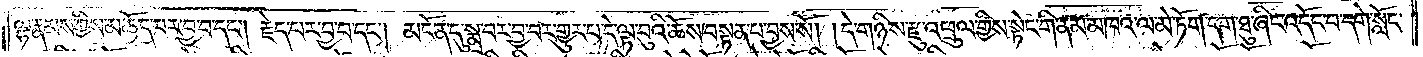ལྷ་རྣམས་ཀྱིས་མཆོད་པར་བྱ་བ་དང༌། རྗེད་པར་བྱ་བ་དང༌། མངོན་དུ་སྨྲ་བར་བྱ་བར་གྱུར་པ་དེ་ལྟ་བུའི་ཆོས་བསྟན་པ་བྱས་སོ། །དེ་གཉིས་རྫུ་འཕྲུལ་གྱིས་སྟེང་གི་ནམ་མཁའ་ལ་མེ་ཏོག་དག་ཐུ་ཞིང་འདོང་བ་དགེ་སློང་
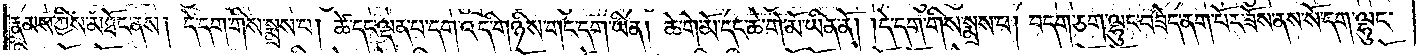རྣམས་ཀྱིས་མཐོང་ནས། དེ་དག་གིས་སྨྲས་པ། ཚེ་དང་ལྡན་པ་དག་འདི་གཉིས་གང་དག་ཡིན། ཆེ་གེ་མོ་དང་ཆེ་གེ་མོ་ཡིན་ནོ། །དེ་དག་གིས་སྨྲས་པ། བདག་ཅག་ལྷུང་བཟེད་ནག་པོར་ཟོས་ནས་སོ་དག་ལྷུང་
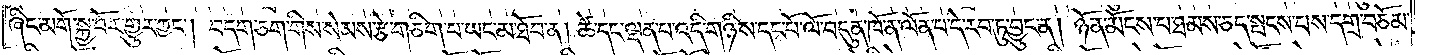ཞིང་མགོ་སྐྱ་བོར་གྱུར་ཀྱང༌། བདག་ཅག་གིས་སེམས་རྩེ་གཅིག་པ་ཡང་མ་ཐོབ་ན། ཚེ་དང་ལྡན་པ་འདི་གཉིས་དང་པོ་ལོ་བདུན་ཁོ་ན་ལོན་པ་དེ་རབ་ཏུ་བྱུང་ན། ཉོན་མོངས་པ་ཐམས་ཅད་སྤངས་པས་དགྲ་བཅོམ་
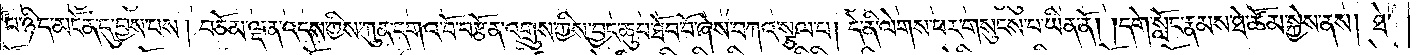པ་ཉིད་མངོན་དུ་བྱས་པས། བཅོམ་ལྡན་འདས་ཀྱིས་ཀུན་དགའ་བོ་བརྩོན་འགྲུས་ཀྱིས་བྱང་ཆུབ་ཐོབ་བོ་ཞེས་བཀའ་སྩལ་པ། དེ་ནི་ལེགས་པར་གསུངས་པ་ཡིན་ནོ། །དགེ་སློང་རྣམས་ཐེ་ཚོམ་སྐྱེས་ནས། ཐེ་
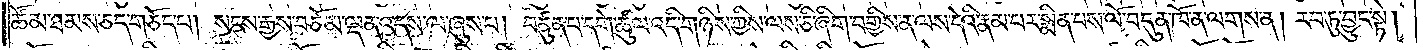ཚོམ་ཐམས་ཅད་གཅོད་པ། སངས་རྒྱས་བཅོམ་ལྡན་འདས་ལ་ཞུས་པ། བཙུན་པ་དགེ་ཚུལ་འདི་གཉིས་ཀྱིས་ལས་ཅི་ཞིག་བགྱིས་ན་ལས་དེའི་རྣམ་པར་སྨིན་པས་ལོ་བདུན་ཁོ་ན་ལགས་ན། རབ་ཏུ་བྱུང་སྟེ།
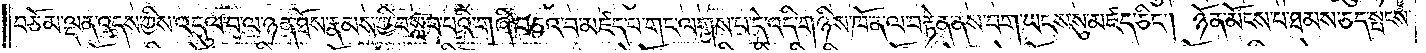བཅོམ་ལྡན་འདས་ཀྱིས་འདུལ་བ་ལ་ཉན་ཐོས་རྣམས་ཀྱི་བསླབ་པའི་གཞི་བཅའ་བ་མཛད་པ་གང་ལགས་པ་དེ་འདི་གཉིས་ཁོ་ན་ལ་བརྟེན་ནས་བག་ཡངས་སུ་མཛད་ཅིང༌། ཉོན་མོངས་པ་ཐམས་ཅད་སྤངས་
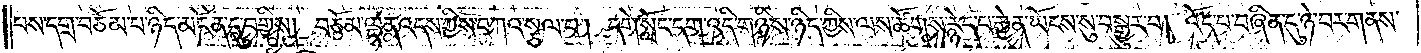པས་དགྲ་བཅོམ་པ་ཉིད་མངོན་དུ་བགྱིས། བཅོམ་ལྡན་འདས་ཀྱིས་བཀའ་སྩལ་བ། དགེ་སློང་དག་འདི་གཉིས་ཉིད་ཀྱིས་ལས་ཚོགས་རྙེད་པ་རྐྱེན་ཡོངས་སུ་བསྒྱུར་བ། འོད་པ་བཞིན་དུ་ཉེ་བར་གནས་
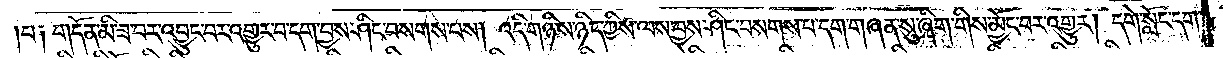པ༏ གདོན་མི་ཟ་བར་འབྱུང་བར་འགྱུར་བ་དག་བྱས་ཤིང་བསགས་པས། འདི་གཉིས་ཉིད་ཀྱིས་ལས་བྱས་ཤིང་བསགས་པ་དག་གཞན་སུ་ཞིག་གིས་མྱོང་བར་འགྱུར། དགེ་སློང་དག་
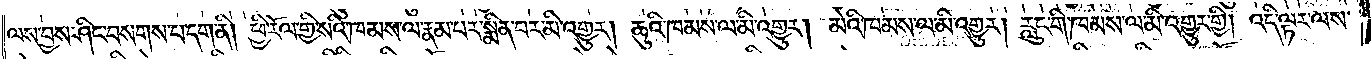ལས་བྱས་ཤིང་བསགས་པ་དག་ནི། ཕྱི་རོལ་གྱི་སའི་ཁམས་ལ་རྣམ་པར་སྨིན་པར་མི་འགྱུར། ཆུའི་ཁམས་ལ་མི་འགྱུར། མེའི་ཁམས་ལ་མི་འགྱུར། རླུང་གི་ཁམས་ལ་མི་འགྱུར་གྱི། འདི་ལྟར་ལས་
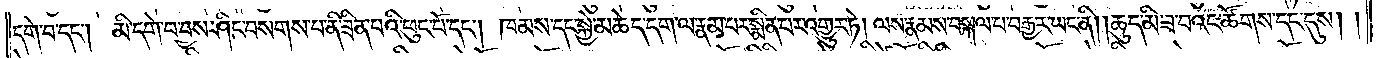དགེ་བ་དང༌། མི་དགེ་བ་བྱས་ཤིང་བསགས་པ་ནི་ཟིན་པའི་ཕུང་པོ་དང༌། ཁམས་དང་སྐྱེ་མཆེད་དག་ལ་རྣམ་པར་སྨིན་པར་འགྱུར་ཏེ། ལས་རྣམས་བསྐལ་པ་བརྒྱར་ཡང་ནི། །ཆུད་མི་ཟ་བའང་ཚོགས་དང་དུས། །
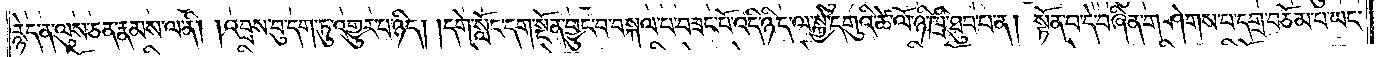རྙེད་ན་ལུས་ཅན་རྣམས་ལ་ནི། །འབྲས་བུ་དག་ཏུ་འགྱུར་པ་ཉིད། །དགེ་སློང་དག་སྔོན་བྱུང་བ་བསྐལ་པ་བཟང་པོ་འདི་ཉིད་ལ་སྐྱེ་དགུའི་ཚེ་ལོ་ཉི་ཁྲི་ཐུབ་པ་ན། སྟོན་པ་དེ་བཞིན་གཤེགས་པ་དགྲ་བཅོམ་པ་ཡང་
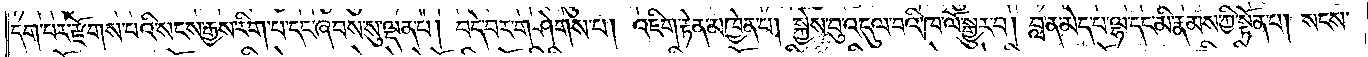དག་པར་རྫོགས་པའི་སངས་རྒྱས་རིག་པ་དང་ཞབས་སུ་ལྡན་པ། བདེ་བར་གཤེགས་པ། འཇིག་རྟེན་མཁྱེན་པ། སྐྱེས་བུ་འདུལ་བའི་ཁ་ལོ་སྒྱུར་བ། བླ་ན་མེད་པ་ལྷ་དང་མི་རྣམས་ཀྱི་སྟོན་པ། སངས་
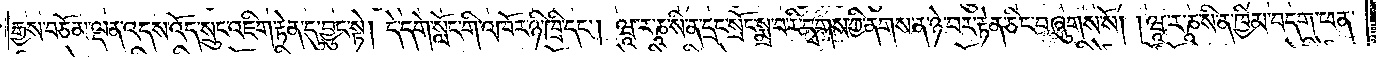རྒྱས་བཅོམ་ལྡན་འདས་འོད་སྲུང་འཇིག་རྟེན་དུ་བྱུང་སྟེ། དེ་དགེ་སློང་གི་འཁོར་ཉི་ཁྲི་དང༌། ཝཱ་ར་ཎཱ་སི་ན་དྲང་སྲོང་སྨྲ་བ་རི་དྭགས་ཀྱི་ནགས་ན་ཉེ་བར་རྟེན་ཅིང་བཞུགས་སོ། །ཝཱ་ར་ཎཱ་སི་ན་ཁྱིམ་བདག་ཕན་
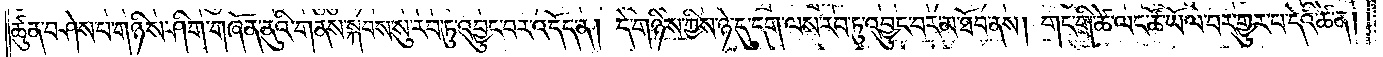ཚུན་བཤེས་པ་གཉིས་ཤིག་གཞོན་ནུའི་གནས་སྐབས་སུ་རབ་ཏུ་འབྱུང་བར་འདོད་ན། དེ་གཉིས་ཀྱིས་ཉེ་དུ་དག་ལས་རབ་ཏུ་འབྱུང་བར་མ་ཐོབ་ནས། གང་གི་ཚེ་ལང་ཚོ་ཡོལ་བར་གྱུར་པ་དེའི་ཚེ་ན།
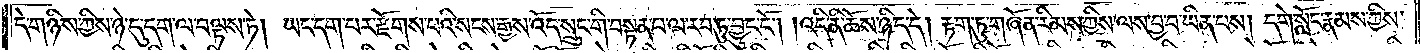དེ་གཉིས་ཀྱིས་ཉེ་དུ་དག་ལ་བལྟས་ཏེ། ཡང་དག་པར་རྫོགས་པའི་སངས་རྒྱས་འོད་སྲུང་གི་བསྟན་པ་ལ་རབ་ཏུ་བྱུང་ངོ༌། །འདི་ནི་ཆོས་ཉིད་དེ། རྟག་ཏུ་གཞོན་རིམས་ཀྱིས་ལས་བྱ་བ་ཡིན་པས། དགེ་སློང་རྣམས་ཀྱིས་
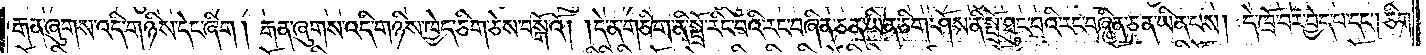རྒན་ཞུགས་འདི་གཉིས་དེང་ཞིག །རྒན་ཞུགས་འདི་གཉིས་ཁྱེད་ཅིག་ཅེས་བསྒོའོ། །དེ་ན་གཅིག་ནི་སྤྲོ་རིང་བའི་རང་བཞིན་ཅན་ཡིན་ཅིག་ཤོས་ནི་སྤྲོ་ཐུང་བའི་རང་བཞིན་ཅན་ཡིན་པས། དེ་ཁྲོ་བར་བྱེད་པ་དང༌། ཅིག་
